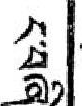ང་བཞི་
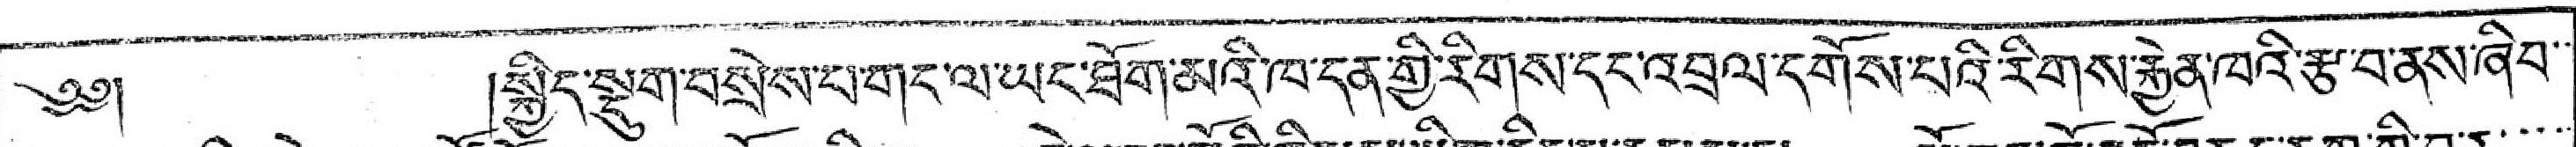༄༅།  །སྐྱིད་སྡུག་བསྲེས་པ་གང་ལ་ཡང་ཐོག་མའི་ཁ་དན་གྱི་རིགས་དང་འབྲལ་དགོས་པའི་རིགས་རྐྱེན་ཁའི་རྩ་བ་ནས་ཞིབ་་
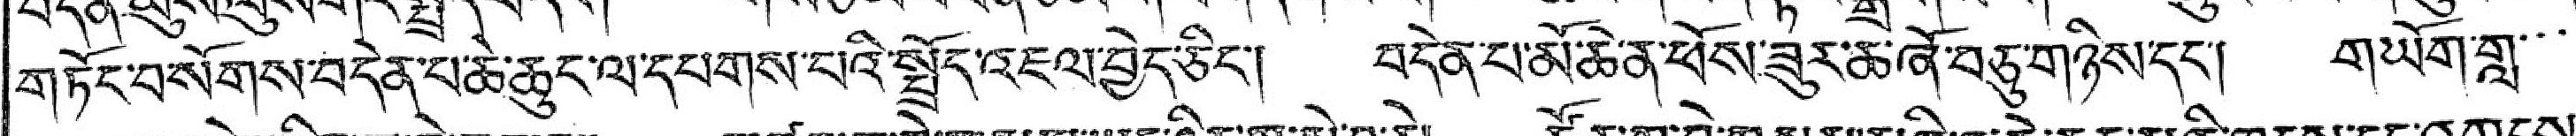གཏོང་བ་སོགས་བདེན་པ་ཆེ་ཆུང་ལ་དཔགས་པའི་སྤྲོད་འཇལ་བྱེད་ཅིང་། བདེན་པ་མོ་ཆེ་ན་ཕོས་ཟུར་ཆ་ཞོ་བཅུ་གཉིས་དང་། གཡོག་གླ་་་་
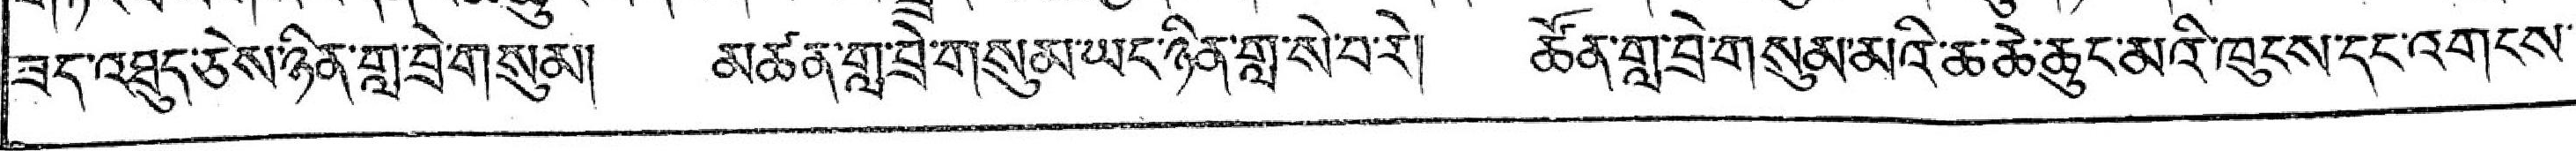ཟད་འཐུད་ཅེས་ཉིན་གླ་བྲེ་གསུམ། མཚན་གླ་བྲེ་གསུམ་ཡང་ཉིན་གླ་སེ་བ་རེ། ཚོན་གླ་བྲེ་གསུམ་མའི་ཆ་ཆེ་ཆུང་མའི་ཁུངས་དང་འགངས་་
